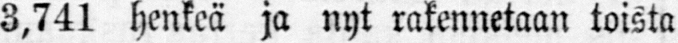3,741 henkeä ja nyt rakennetaan toista
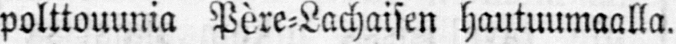polttouunia Pére-Lachaisen hautuumaalla.
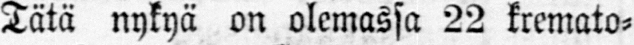Tätä nykyä on olemassa 22 kremato-
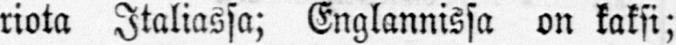riota Italiassa; Englannissa on kaksi;
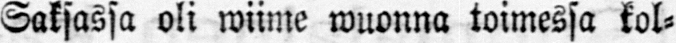Saksassa oli wiime wuonna toimessa kol-
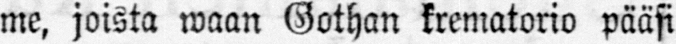me, joista waan Gothan krematorio pääsi
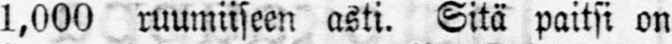1,000 ruumiiseen asti. Sitä paitsi on
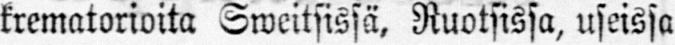krematorioita Sweitsissä, Ruotsissa, useissa
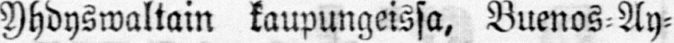Yhdyswaltain kaupungeissa, Buenos Ay-
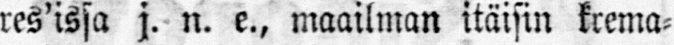res'issa j. n. e., maailman itäisin krema-
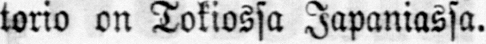torio on Tokiossa Japaniassa.
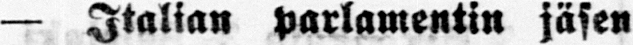— Italian parlamentin jäsen
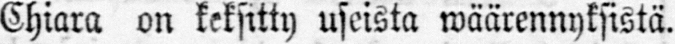Chiara on keksitty useista wäärennyksistä.
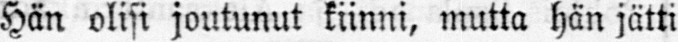Hän olisi joutunut kiinni, mutta hän jätti
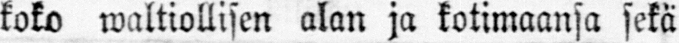koko waltiollisen alan ja kotimaansa sekä
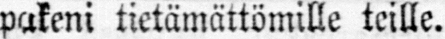pukein tietämättömille teille.
